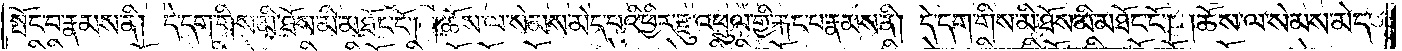སྤོང་བ་རྣམས་ནི། དེ་དག་གིས་མི་ཐོས་མི་མཐོང་ངོ༌། །ཆོས་ལ་སེམས་མེད་པའི་ཕྱིར་རྫུ་འཕྲུལ་གྱི་རྐང་པ་རྣམས་ནི། དེ་དག་གིས་མི་ཐོས་མི་མཐོང་ངོ༌། །ཆོས་ལ་སེམས་མེད་
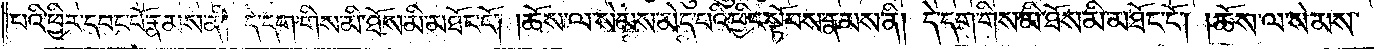པའི་ཕྱིར་དབང་པོ་རྣམས་ནི། དེ་དག་གིས་མི་ཐོས་མི་མཐོང་ངོ༌། །ཆོས་ལ་སེམས་མེད་པའི་ཕྱིར་སྟོབས་རྣམས་ནི། དེ་དག་གིས་མི་ཐོས་མི་མཐོང་ངོ༌། །ཆོས་ལ་སེམས་
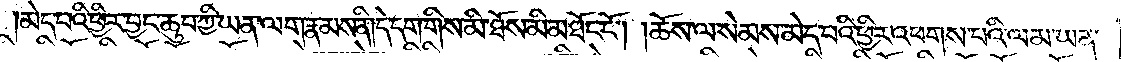མེད་པའི་ཕྱིར་བྱང་ཆུབ་ཀྱི་ཡན་ལག་རྣམས་ནི། དེ་དག་གིས་མི་ཐོས་མི་མཐོང་ངོ༌། །ཆོས་ལ་སེམས་མེད་པའི་ཕྱིར་འཕགས་པའི་ལམ་ཡན་
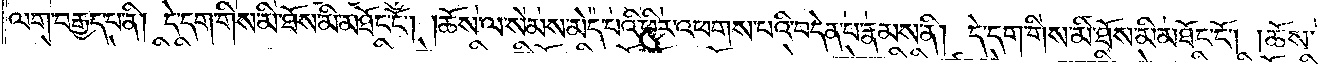ལག་བརྒྱད་པ་ནི། དེ་དག་གིས་མི་ཐོས་མི་མཐོང་ངོ༌། །ཆོས་ལ་སེམས་མེད་པའི་ཕྱིར་འཕགས་པའི་བདེན་པ་རྣམས་ནི། དེ་དག་གིས་མི་ཐོས་མི་མཐོང་ངོ༌། །ཆོས་
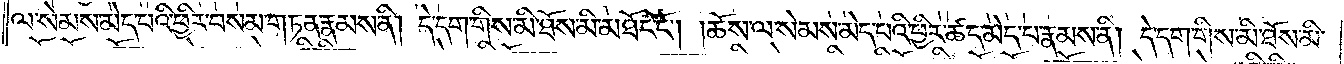ལ་སེམས་མེད་པའི་ཕྱིར་བསམ་གཏན་རྣམས་ནི། དེ་དག་གིས་མི་ཐོས་མི་མཐོང་ངོ༌། །ཆོས་ལ་སེམས་མེད་པའི་ཕྱིར་ཚད་མེད་པ་རྣམས་ནི། དེ་དག་གིས་མི་ཐོས་མི་
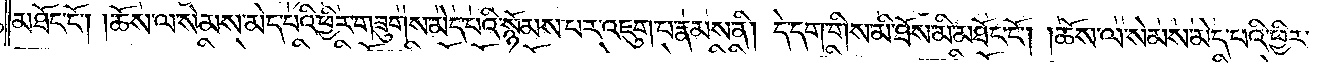མཐོང་ངོ༌། །ཆོས་ལ་སེམས་མེད་པའི་ཕྱིར་གཟུགས་མེད་པའི་སྙོམས་པར་འཇུག་པར་རྣམས་ནི། དེ་དག་གིས་མི་ཐོས་མི་མཐོང་ངོ༌། །ཆོས་ལ་སེམས་མེད་པའི་ཕྱིར་
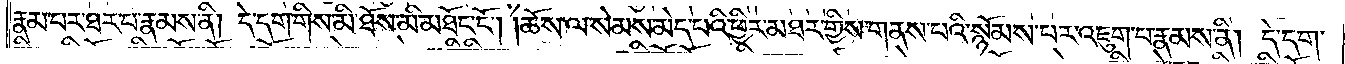རྣམ་པར་ཐར་པ་རྣམས་ནི། དེ་དག་གིས་མི་ཐོས་མི་མཐོང་ངོ༌། །ཆོས་ལ་སེམས་མེད་པའི་ཕྱིར་མཐར་གྱིས་གནས་པའི་སྙོམས་པར་འཇུག་པ་རྣམས་ནི། དེ་དག་
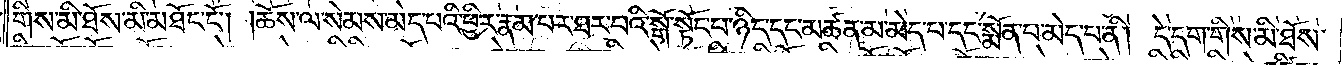གིས་མི་ཐོས་མི་མཐོང་ངོ༌། །ཆོས་ལ་སེམས་མེད་པའི་ཕྱིར་རྣམ་པར་ཐར་པའི་སྒོ་སྟོང་པ་ཉིད་དང་མཚན་མ་མེད་པ་དང་སྨོན་པ་མེད་པ་ནི། དེ་དག་གིས་མི་ཐོས་
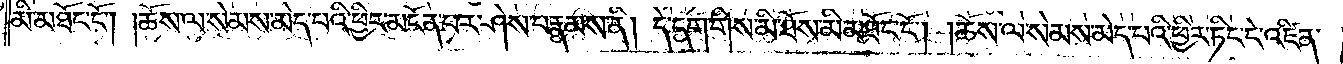མི་མཐོང་ངོ༌། །ཆོས་ལ་སེམས་མེད་པའི་ཕྱིར་མངོན་པར་ཤེས་པ་རྣམས་ནི། དེ་དག་གིས་མི་ཐོས་མི་མཐོང་ངོ༌། །ཆོས་ལ་སེམས་མེད་པའི་ཕྱིར་ཏིང་ངེ་འཛིན་
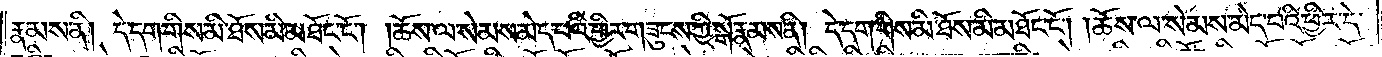རྣམས་ནི། དེ་དག་གིས་མི་ཐོས་མི་མཐོང་ངོ༌། །ཆོས་ལ་སེམས་མེད་པའི་ཕྱིར་གཟུངས་ཀྱི་སྒོ་རྣམས་ནི། དེ་དག་གིས་མི་ཐོས་མི་མཐོང་ངོ༌། །ཆོས་ལ་སེམས་མེད་པའི་ཕྱིར་དེ་
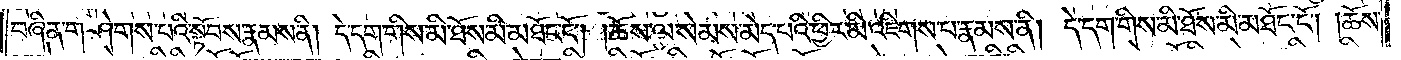བཞིན་གཤེགས་པའི་སྟོབས་རྣམས་ནི། དེ་དག་གིས་མི་ཐོས་མི་མཐོང་ངོ༌། །ཆོས་ལ་སེམས་མེད་པའི་ཕྱིར་མི་འཇིགས་པ་རྣམས་ནི། དེ་དག་གིས་མི་ཐོས་མི་མཐོང་ངོ༌། །ཆོས་
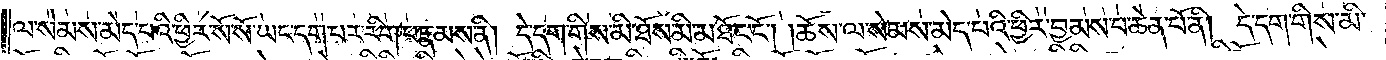ལ་སེམས་མེད་པའི་ཕྱིར་སོ་སོ་ཡང་དག་པར་རིག་པ་རྣམས་ནི། དེ་དག་གིས་མི་ཐོས་མི་མཐོང་ངོ༌། །ཆོས་ལ་སེམས་མེད་པའི་ཕྱིར་བྱམས་པ་ཆེན་པོ་ནི། དེ་དག་གིས་མི་
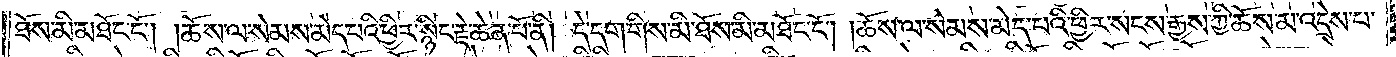ཐོས་མི་མཐོང་ངོ༌། །ཆོས་ལ་སེམས་མེད་པའི་ཕྱིར་སྙིང་རྗེ་ཆེན་པོ་ནི། དེ་དག་གིས་མི་ཐོས་མི་མཐོང་ངོ༌། །ཆོས་ལ་སེམས་མེད་པའི་ཕྱིར་སངས་རྒྱས་ཀྱི་ཆོས་མ་འདྲེས་པ་
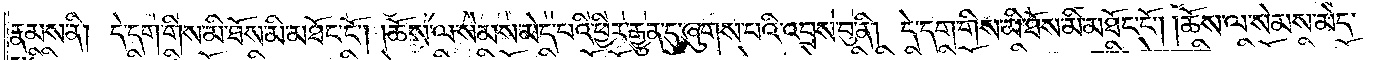རྣམས་ནི། དེ་དག་གིས་མི་ཐོས་མི་མཐོང་ངོ༌། །ཆོས་ལ་སེམས་མེད་པའི་ཕྱིར་རྒྱུན་དུ་ཞུགས་པའི་འབྲས་བུ་ནི། དེ་དག་གིས་མི་ཐོས་མི་མཐོང་ངོ༌། །ཆོས་ལ་སེམས་མེད་
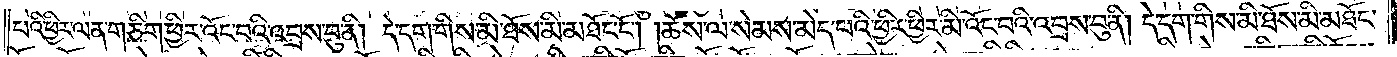པའི་ཕྱིར་ལན་གཅིག་ཕྱིར་འོང་བའི་འབྲས་བུ་ནི། དེ་དག་གིས་མི་ཐོས་མི་མཐོང་ངོ༌། །ཆོས་ལ་སེམས་མེད་པའི་ཕྱིར་ཕྱིར་མི་འོང་བའི་འབྲས་བུ་ནི། དེ་དག་གིས་མི་ཐོས་མི་མཐོང་
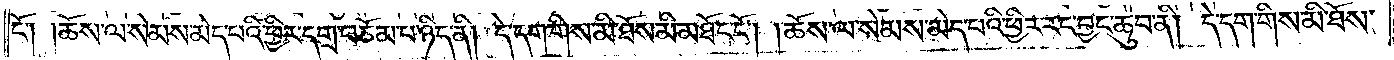ངོ༌། །ཆོས་ལ་སེམས་མེད་པའི་ཕྱིར་དགྲ་བཅོམ་པ་ཉིད་ནི། དེ་དག་གིས་མི་ཐོས་མི་མཐོང་ངོ༌། །ཆོས་ལ་སེམས་མེད་པའི་ཕྱིར་རང་བྱང་ཆུབ་ནི། དེ་དག་གིས་མི་ཐོས་
